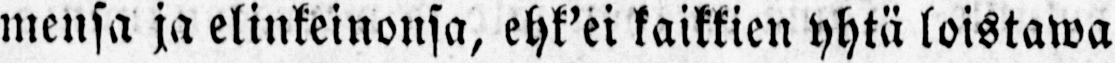mensa ja elinkeinonsa, ehk'ei kaikkien yhtä loistawa
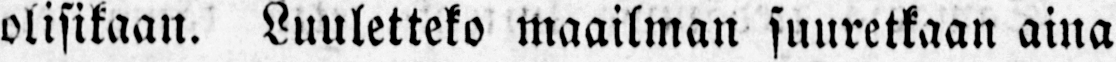olisikaan. Luuletteko Maailman suuretkaan aina
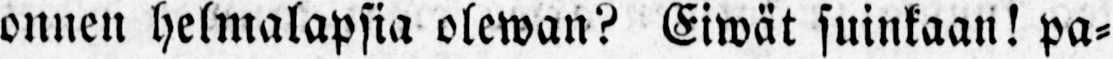onnen helmalapsia olewan? Eiwät suinkaan! pa-
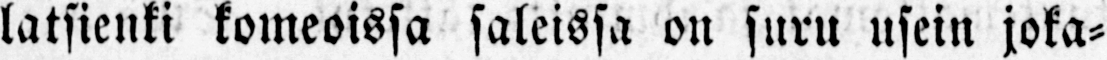latsienki komeoissa saleissa on suru usein joka-
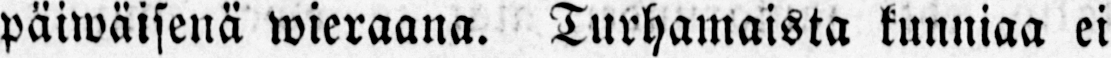päiwäisenä wieraana. Turhamaista kunniaa ei
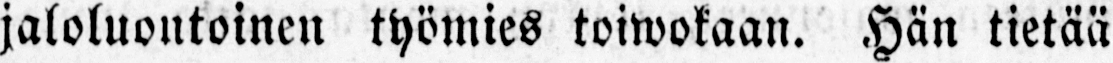jaloluontoinen työmies toiwokaan. Hän tietää
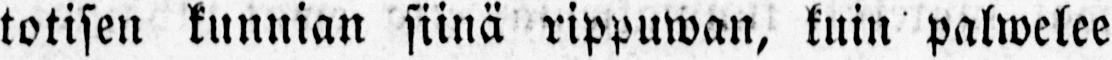totisen kunnian siinä rippuwan, kuin palwelee
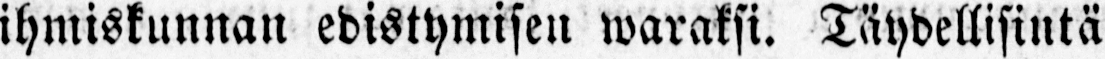ihmiskunnan edistymisen waraksi. Täydellisintä
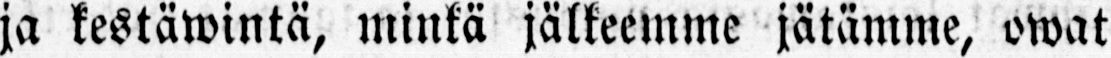ja kestäwintä, minkä jälkeemme jätämme, owat
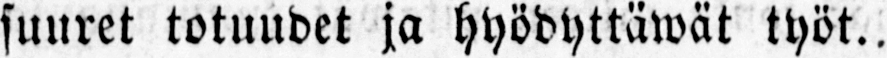suuret totuudet ja hyödyttäwät työt.
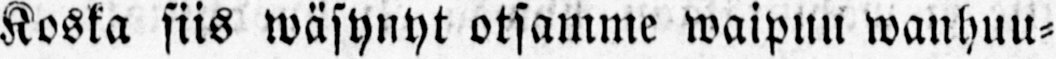Koska siis wäsynyt otsamme waipuu wanhuu-
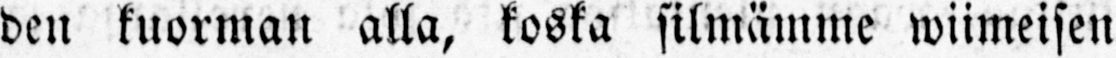den kuorman alla, koska silmämme wiimeisen
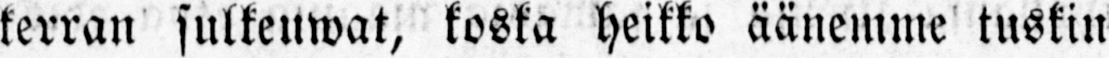kerran sulkeuwat, koska heikko äänemme tuskin
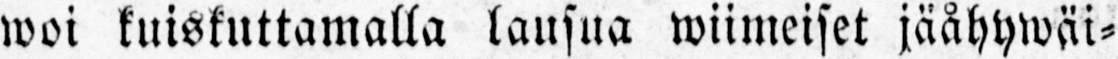woi kuiskuttamalla lausua wiimeiset jäähywäi-
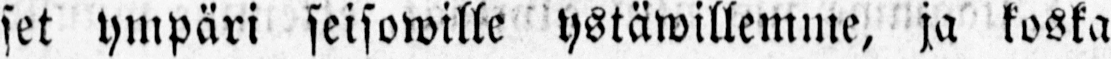set ympäri seisowille ystäwillemme, ja koska
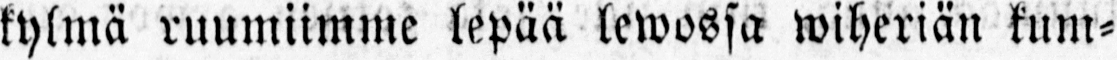kylmä ruumiimme lepää lewossa wiheriän kum-
